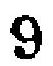9
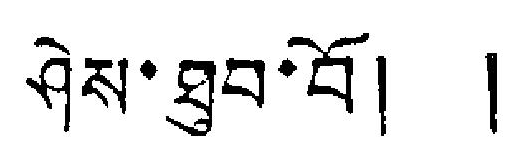ཤེས་ཐུབ་བོ། །
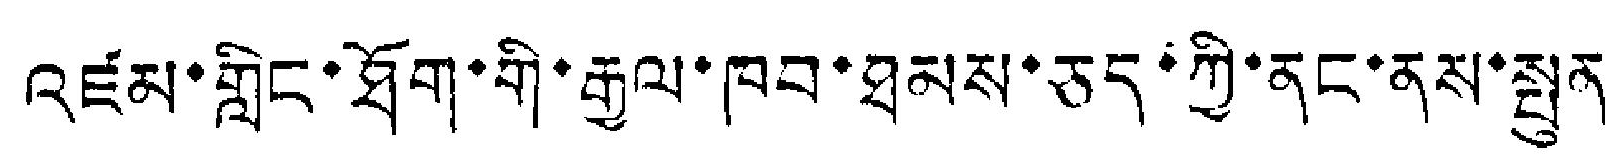འཛམ་གླིང་ཐོག་གི་རྒྱལ་ཁབ་ཐམས་ཅད་ཀྱི་ནང་ནས་སྤུན
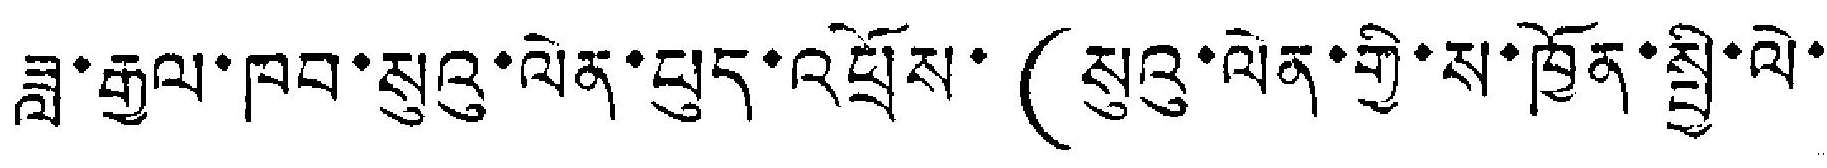ཟླ་རྒྱལ་ཁབ་སུའུ་ལེན་ཕུད་འཕྲོས་ (སུའུ་ལེན་གྱི་ས་ཁྱོན་སྤྱི་ལེ་
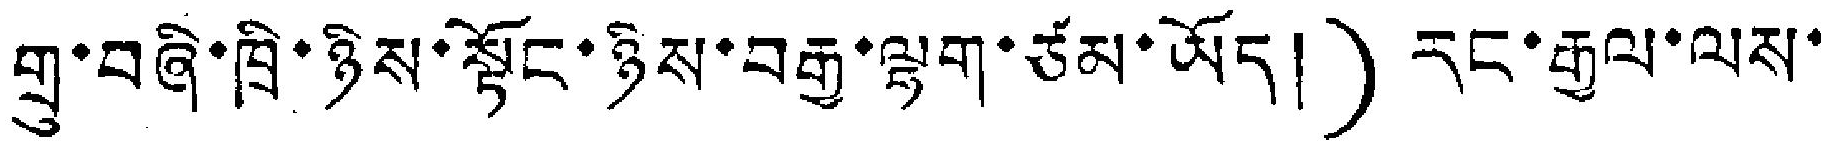གྲུ་བཞི་ཁྲི་ཉིས་སྟོང་ཉིས་བརྒྱ་ལྷག་ཙམ་ཡོད།) རང་རྒྱལ་ལས་
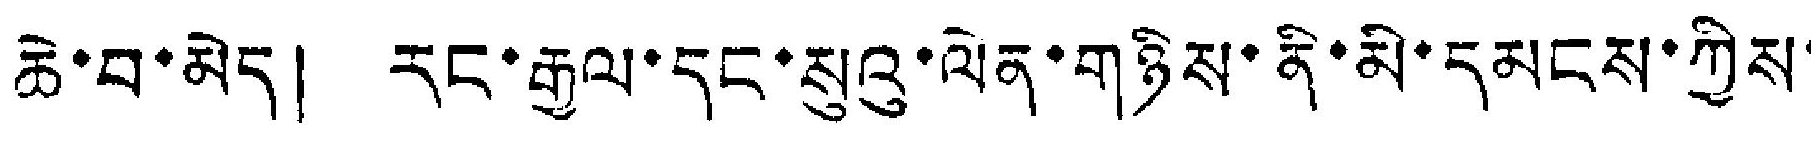ཆེ་བ་མེད། རང་རྒྱལ་དང་སུའུ་ལེན་གཉིས་ནི་མི་དམངས་ཀྱིས་
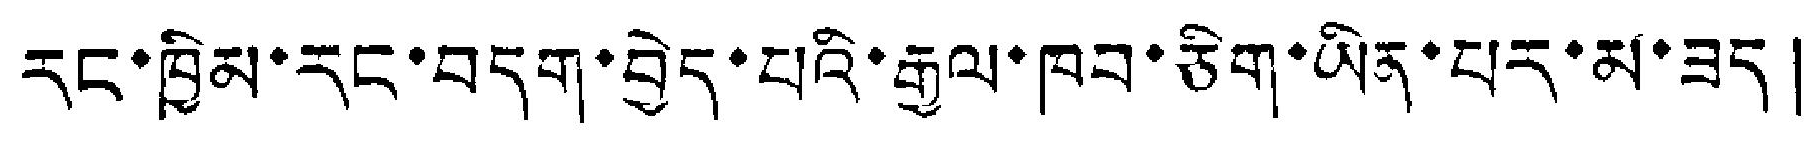རང་ཁྱིམ་རང་བདག་བྱེད་པའི་རྒྱལ་ཁབ་ཅིག་ཡིན་པར་མ་ཟད།
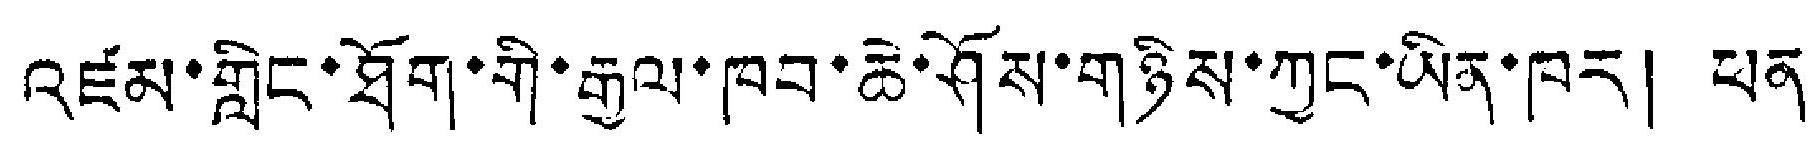འཛམ་གླིང་ཐོག་གི་རྒྱལ་ཁབ་ཆེ་ཤོས་གཉིས་ཀྱང་ཡིན་ཁར། ཕན་
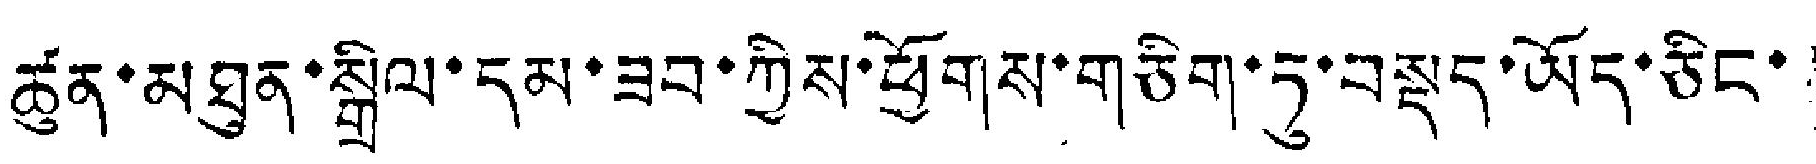ཚུན་མཐུན་སྒྲིལ་དམ་ཟབ་ཀྱིས་ཕྱོགས་གཅིག་ཏུ་བསྡད་ཡོད་ཅིང་།
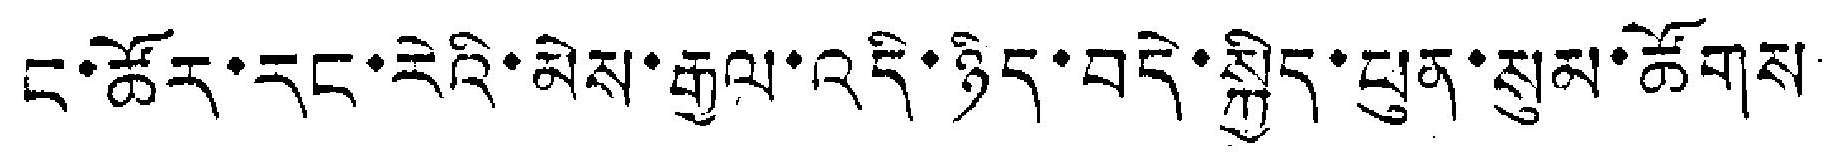ང་ཚོར་རང་རེའི་མེས་རྒྱལ་འདི་ཉིད་བདེ་སྐྱིད་ཕུན་སུམ་ཚོགས
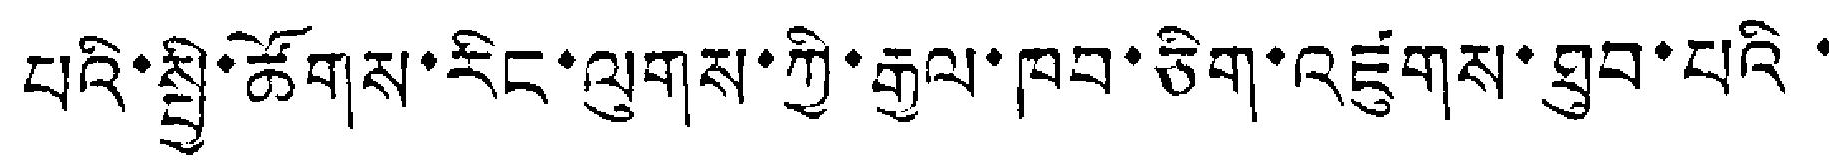པའི་སྤྱི་ཚོགས་རིང་ལུགས་ཀྱི་རྒྱལ་ཁབ་ཅིག་འཛུགས་ཐུབ་པའི་་
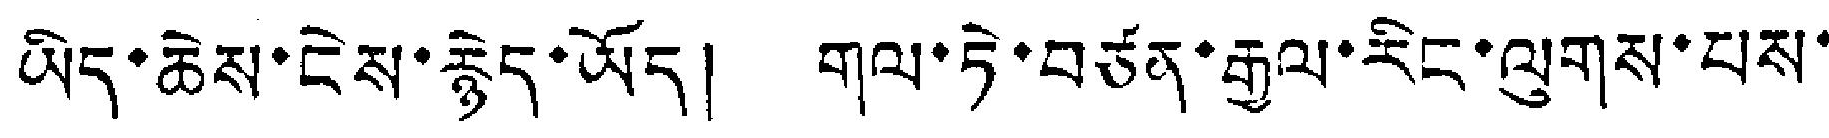ཡིད་ཆེས་ངེས་རྙེད་ཡོད། གལ་ཏེ་བཙན་རྒྱལ་རིང་ལུགས་པས་
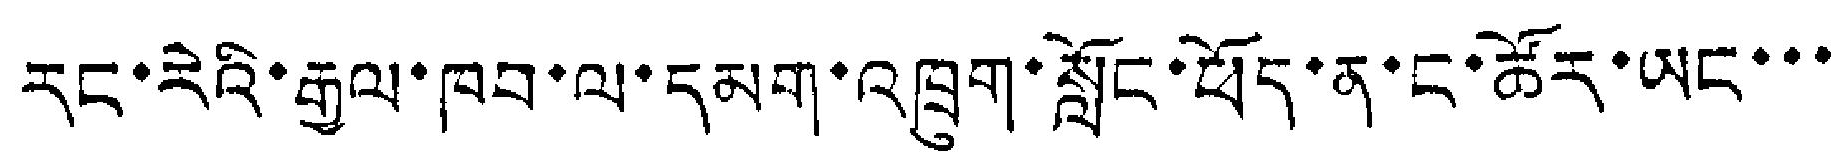རང་རེའི་རྒྱལ་ཁབ་ལ་དམག་འཁྲུག་སློང་ཕོད་ན་ང་ཚོར་ཡང་་་
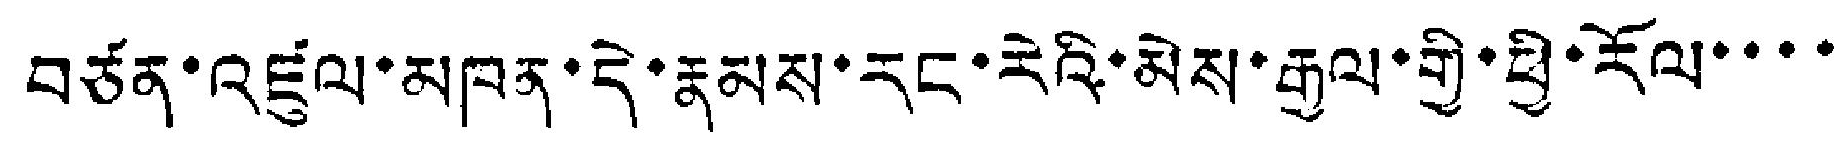བཙན་འཛུལ་མཁན་དེ་རྣམས་རང་རེའི་མེས་རྒྱལ་གྱི་ཕྱི་རོལ་་་་
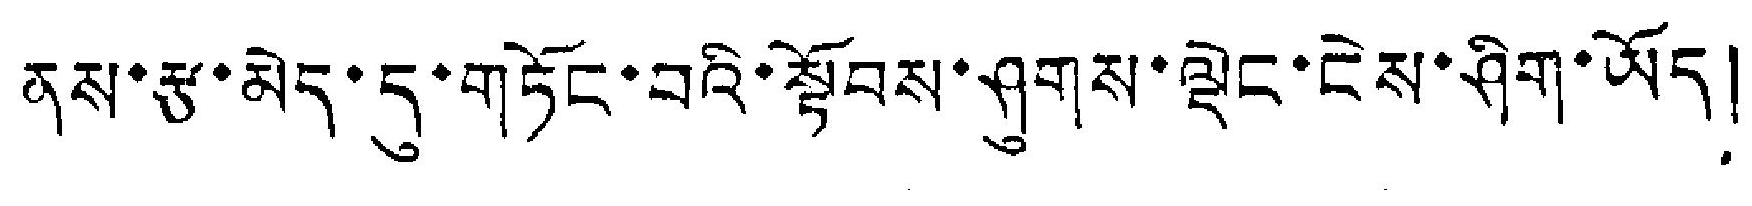ནས་རྩ་མེད་དུ་གཏོང་བའི་སྟོབས་ཤུགས་ལྡེང་ངེས་ཤིག་ཡོད།
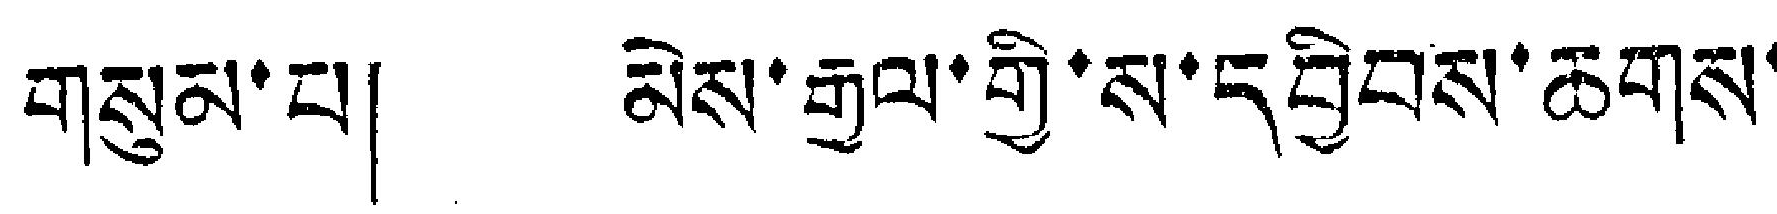གསུམ་པ། མེས་རྒྱལ་གྱི་ས་དབྱིབས་ཆགས་
